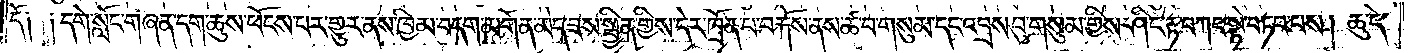དོ༑ ༑དགེ་སློང་གཞན་དག་ཆུས་ཕོངས་པར་གྱུར་ནས་ཁྱིམ་བདག་མགོན་མེད་ཟས་སྦྱིན་གྱིས་དེར་ཁྲོན་པ་བརྐོས་ནས་ཚ་བ་གསུམ་དང་འབྲས་བུ་གསུམ་གྱིས་ཤིང་རྟ་བཀང་སྟེ་བཏབ་པས། ཆུ་དེ་
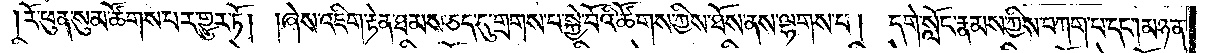རོ་ཕུན་སུམ་ཚོགས་པར་གྱུར་ཏོ། །ཞེས་འཇིག་རྟེན་ཐམས་ཅད་དུ་གྲགས་པ་སྐྱེ་བོའི་ཚོགས་ཀྱིས་ཐོས་ནས་ལྷགས་པ། དགེ་སློང་རྣམས་ཀྱིས་བཀག་པ་དང༌། མཉན་
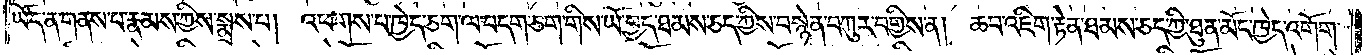ཡོད་ན་གནས་པ་རྣམས་ཀྱིས་སྨྲས་པ། འཕགས་པ་ཁྱེད་ཅག་ལ་བདག་ཅག་གིས་ཡོ་བྱད་ཐམས་ཅད་ཀྱིས་བསྙེན་བཀུར་བགྱིས་ན། ཆབ་འཇིག་རྟེན་ཐམས་ཅད་ཀྱི་ཐུན་མོང་ཁྱེད་འགོག་
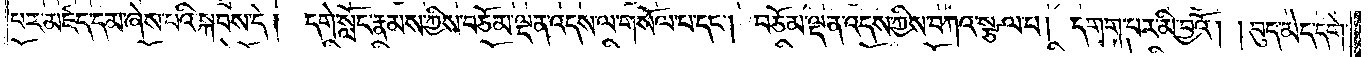པར་མཛད་དམ་ཞེས་པའི་སྐབས་དེ། དགེ་སློང་རྣམས་ཀྱིས་བཅོམ་ལྡན་འདས་ལ་གསོལ་པ་དང༌། བཅོམ་ལྡན་འདས་ཀྱིས་བཀའ་སྩལ་པ། དགག་པར་མི་བྱའོ། །བུད་མེད་དགེ་
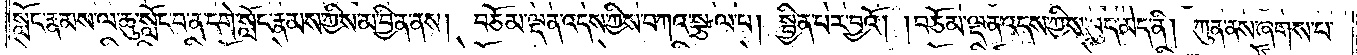སློང་རྣམས་ལ་ཆུ་སློང་པ་ན་དགེ་སློང་རྣམས་ཀྱིས་མ་བྱིན་ནས། བཅོམ་ལྡན་འདས་ཀྱིས་བཀའ་སྩལ་པ། སྦྱིན་པར་བྱའོ། །བཅོམ་ལྡན་འདས་ཀྱིས་བུད་མེད་ནི། ཀུན་ནས་ཞགས་པ་
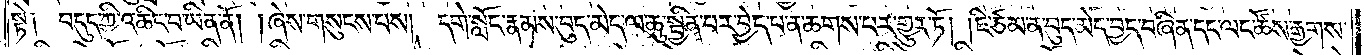སྟེ༑ བདུད་ཀྱི་འཆིང་བ་ཡིན་ནོ། །ཞེས་གསུངས་པས། དགེ་སློང་རྣམས་བུད་མེད་ལ་ཆུ་སྦྱིན་པར་བྱེད་པ་ན་ཆགས་པར་གྱུར་ཏོ། །ཇི་ཙམ་ན་བུད་མེད་བྱད་བཞིན་དང་ལང་ཚོས་རྒྱགས་
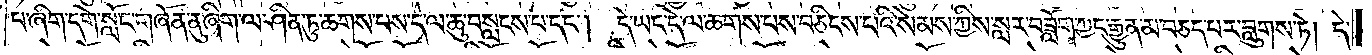པ་ཞིག་དགེ་སློང་གཞོན་ནུ་ཞིག་ལ་ཤིན་ཏུ་ཆགས་པས་དེ་ལ་ཆུ་བསླངས་པ་དང༌། དེ་ཡང་དེ་ལ་ཆགས་པས་བཅིངས་པའི་སེམས་ཀྱིས་སླར་བཟློག་ཀྱང་རྒྱུན་མ་བཅད་པར་བླུགས་ཏེ། དེ་
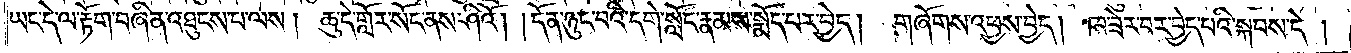ཡང་དེ་ལ་རྟོག་བཞིན་འཐུངས་པ་ལས། ཆུ་དེ་གློར་སོང་ནས་ཤིའོ། །དོན་ཉུང་བའི་དགེ་སློང་རྣམས་སྨོད་པར་བྱེད། གཞོགས་འཕྱས་བྱེད། ཁ་ཟེར་བར་བྱེད་པའི་སྐབས་དེ།
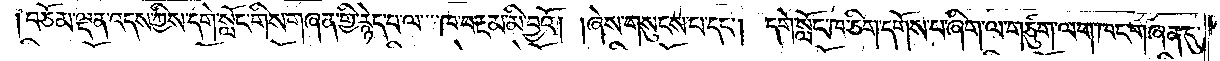བཅོམ་ལྡན་འདས་ཀྱིས་དགེ་སློང་གིས་གཞན་གྱི་རྙེད་པ་ལ་ཁ་བརྔམ་མི་བྱའོ། །ཞེས་གསུངས་པ་དང༌། དགེ་སློང་ཁ་ཅིག་དགོས་པ་ཞིག་ལ་གཙུག་ལག་ཁང་གཞན་དུ་
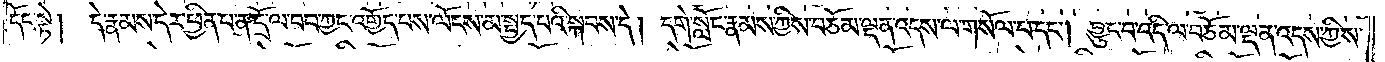དོང་སྟེ། དེ་རྣམས་དེར་ཕྱིན་པ་ན་དྲོ་ལ་བབ་ཀྱང་འགྱོད་པས་ལོངས་མ་སྤྱད་པའི་སྐབས་དེ། དགེ་སློང་རྣམས་ཀྱིས་བཅོམ་ལྡན་འདས་ལ་གསོལ་པ་དང༌། བྱུང་བ་འདི་ལ་བཅོམ་ལྡན་འདས་ཀྱིས་
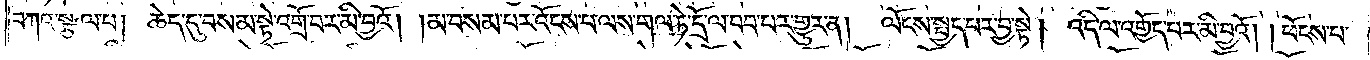བཀའ་སྩལ་པ། ཆེད་དུ་བསམ་སྟེ་འགྲོ་བར་མི་བྱའོ། །མ་བསམ་པར་འོངས་པ་ལས་གལ་ཏེ་དྲོ་ལ་བབ་པར་གྱུར་ན། ལོངས་སྤྱད་པར་བྱ་སྟེ། འདི་ལ་འགྱོད་པར་མི་བྱའོ། །ཕོངས་པ་
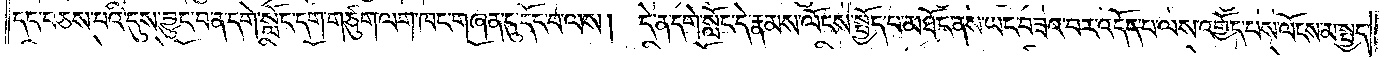དང་བཅས་པའི་དུས་བྱུང་བ་ན་དགེ་སློང་དག་གཙུག་ལག་ཁང་གཞན་དུ་དོང་བ་ལས། དེ་ན་དགེ་སློང་དེ་རྣམས་ལོངས་སྤྱོད་པ་མཐོང་ནས་ཡང་བཟའ་བར་འདོད་པ་ལས་འགྱོད་པས་ལོངས་མ་སྤྱད་
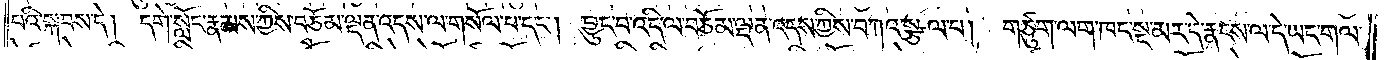པའི་སྐབས་དེ། དགེ་སློང་རྣམས་ཀྱིས་བཅོམ་ལྡན་འདས་ལ་གསོལ་པ་དང༌། བྱུང་བ་འདི་ལ་བཅོམ་ལྡན་འདས་ཀྱིས་བཀའ་སྩལ་པ། གཙུག་ལག་ཁང་སྔ་མར་དེ་རྣངས་ལ་དེ་ཡང་གལ་
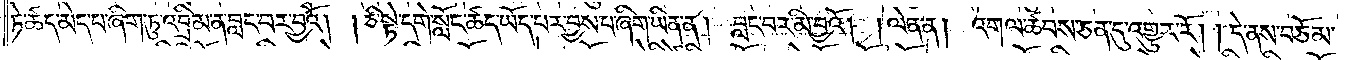ཏེ་ཚད་མེད་པ་ཞིག་ཏུ་འབྲིམ་ན་བླང་བར་བྱའོ། །ཅི་སྟེ་དགེ་སློང་ཚད་ཡོད་པར་བྱས་པ་ཞིག་ཡིན་ན། བླང་བར་མི་བྱའོ། །ལེན་ན། འགལ་ཚབས་ཅན་དུ་འགྱུར་རོ། །དེ་ནས་བཅོམ་
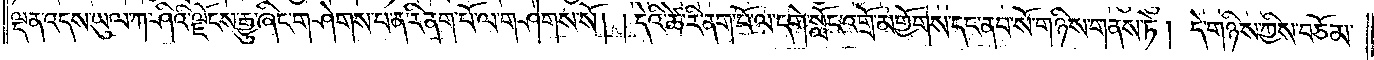ལྡན་འདས་ཡུལ་ཀ་ཤིའི་ལྗོངས་རྒྱུ་ཞིང་གཤེགས་པ་ན་རི་ནག་པོ་ལ་གཤེགས་སོ། །དེའི་ཚེ་རི་ནག་པོ་ལ་དགེ་སློང་འགྲོ་མགྱོགས་དང་ནབ་སོ་གཉིས་གནས་ཏེ། དེ་གཉིས་ཀྱིས་བཅོམ་
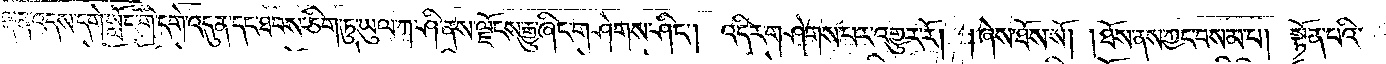ལྡན་འདས་དགེ་སློང་གི་དགེ་འདུན་དང་ཐབས་ཅིག་ཏུ་ཡུལ་ཀ་ཤི་ནས་ལྗོངས་རྒྱུ་ཞིང་གཤེགས་ཤིང༌། འདིར་གཤེགས་པར་འགྱུར་རོ། །ཞེས་ཐོས་སོ། །ཐོས་ནས་ཀྱང་བསམ་པ། སྟོན་པའི་
